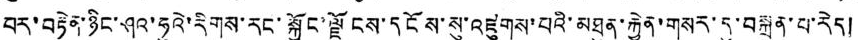བར་བརྟེན་ཉིང་ཤའ་ཧུའེ་རིགས་རང་སྐྱོང་ལྗོངས་དངོས་སུ་འཛུགས་པའི་མཐུན་རྐྱེན་གསར་དུ་བསྐྲུན་པ་རེད།
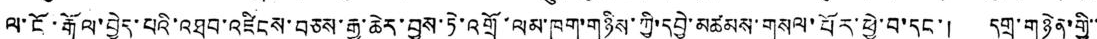ལ་ངོ་རྒོལ་བྱེད་པའི་བཐབ་འཛིངས་བཅས་རྒྱ་ཆེར་བྱས་ཏེ་འགྲོ་ལམ་ཁག་གཉིས་ཀྱི་དབྱེ་མཚམས་གསལ་པོར་ཕྱེ་བ་དང་། དགྲ་གཉེན་གྱི་་
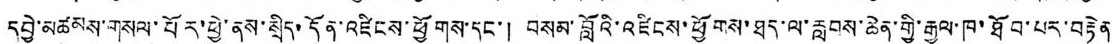དབྱེ་མཚམས་གསལ་པོར་ཕྱེ་ནས་སྲིད་དོན་འཛིངས་ཕྱོགས་དང་། བསམ་བློའི་འཛིངས་ཕྱོགས་ཐད་ལ་རླབས་ཆེན་གྱི་རྒྱལ་ཁ་ཐོབ་པར་བརྟེན
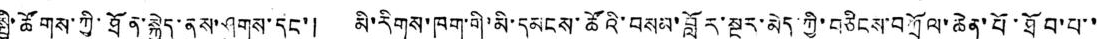སྤྱི་ཚོགས་ཀྱི་ཐོན་སྐྱེད་ནུས་ཤུགས་དང་། མི་རིགས་ཁག་གི་མི་དམངས་ཚོའི་བསམ་བློར་སྔར་མེད་ཀྱི་བཅིངས་བཀྲོལ་ཆེན་པོ་ཐོབ་པ་་
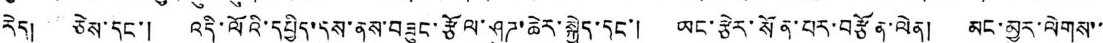རེད། ཅེས་དང་། འདི་ལོའི་དཔྱིད་དུས་ནས་བཟུང་རྩོལ་ཤུཌ་ཆེར་སྐྱེད་དང་། ཡང་རྩེར་སོན་པར་བརྩོན་ལེན། མང་མྱུར་ལེགས་་
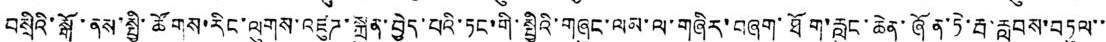བསྲིའི་སྒོ་ནས་སྤྱི་ཚོགས་རིངས་ལུགས་འཛུཌ་སྐྲུན་བྱེད་པའི་ཏང་གི་སྤྱིའི་གཞུང་ལམ་ལ་གཞིར་བཞག་ཐོག་རླུང་ཆེན་ཞོན་ཏེ་རྦ་རླབས་བཏུལ་་
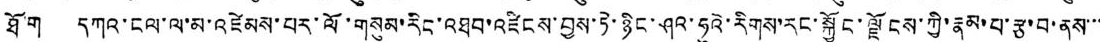ཐོག དཀའ་ངལ་ལ་མ་འཛེམས་པར་ལོ་གསུམ་རིང་འཐབ་འཛིངས་བྱས་ཏེ་ཉིང་ཤའ་ཧུའེ་རིགས་རང་སྐྱོང་ལྗོངས་ཀྱི་རྣམ་པ་རྩ་བ་ནས་་་
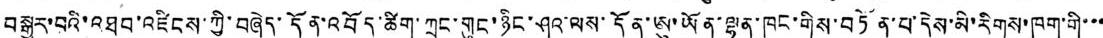བསྒྱུར་པའི་འཐབ་འཛིངས་ཀྱི་བཞེད་དོན་འབོད་ཚིག་ཀྲུང་གུང་ཉིང་ཤའ་ལས་དོན་ཨུ་ཡོན་ལྷན་ཁང་གིས་བཏོན་པ་དེས་མི་རིགས་ཁག་གི་་་
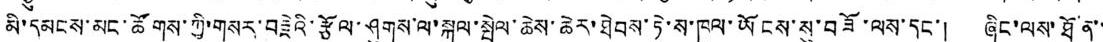མི་དམངས་མང་ཚོགས་ཀྱི་གསར་བརྗེའི་རྩོལ་ཤུགས་ལ་སྐུལ་སྤེལ་ཆེས་ཆེར་ཐེབས་ཏེ་ས་ཁུལ་ཡོངས་སུ་བཟོ་ལས་དང་། ཞིང་ལས་ཐོན་་
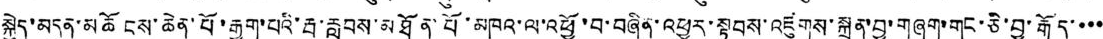སྐྱེད་མདུན་མཆོངས་ཆེན་པོ་རྒྱག་པའི་རྦ་རླབས་མཐོན་པོ་མཁའ་ལ་འཕྱོ་བ་བཞིན་འཕྱུར་སྟབས་འཛུགས་སྐྲུན་བྱ་གཞག་གང་ཅི་བྱ་རྒོད་་་་
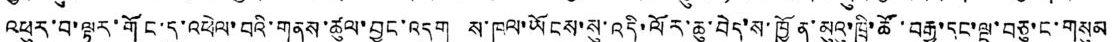འཕུར་བ་ལྟར་གོང་དུ་འཕེལ་བའི་གནས་ཚུལ་བྱུང་འདུག ས་ཁུལ་ཡོངས་སུ་འདི་ལོར་ཆུ་བེད་ས་ཁྱོན་མུའུ་ཁྲི་ཚོ་བརྒྱ་དང་ལྔ་བཅུ་ང་གསུམ
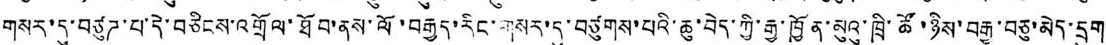གསར་དུ་བཙུཌ་པ་དེ་བཅིངས་འགྲོལ་ཐོབ་ནས་ལོ་བརྒྱད་རིང་གསར་དུ་བཙུགས་པའི་ཆུ་བེད་ཀྱི་རྒྱ་ཁྱོན་མུའུ་ཁྲི་ཚོ་ཉིས་བརྒྱ་བཅུ་མེད་དྲུག
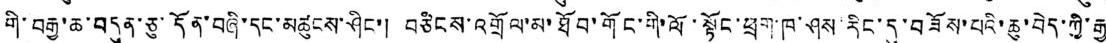གི་བརྒྱ་ཆ་བདུན་ཅུ་དོན་བཞི་དང་མཚུངས་ཤིང་། བཅིངས་འགྲོལ་མ་ཐོབ་གོང་གི་ལོ་སྟོང་ཕྲག་ཁག་ཤས་རིང་དུ་བཟོས་པའི་ཆུ་བེད་ཀྱི་རྒྱ
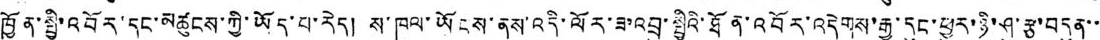ཁྱོན་སྤྱི་འབོར་དང་མཚུངས་ཀྱི་ཡོད་པ་རེད། ས་ཁུལ་ཡོངས་ནས་འདི་ལོར་ཟ་འབྲུ་སྤྱིའི་ཐོན་འབོར་འདེགས་རྒྱ་དུང་ཕྱུར་ཉི་ཤུ་རྩ་བདུན་་
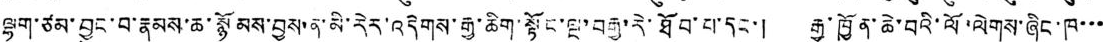ལྷག་ཙམ་བྱུང་བ་རྣམས་ཆ་སྙོམས་བྱས་ན་མི་རེར་འདེགས་རྒྱ་ཆིག་སྟོང་ལྔ་བརྒྱ་རེ་ཐོབ་པ་དང་། རྒྱ་ཁྱོན་ཆེ་བའི་ལོ་ལེགས་ཞིང་ཁ་་་
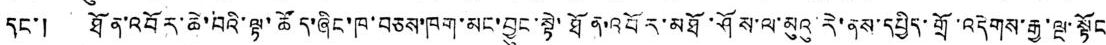དང་། ཐོན་འབོར་ཆེ་བའི་ལྟ་ཚོད་ཞིང་ཁག་བཅས་ཁག་མང་བྱུང་སྟེ་ཐོན་འབོར་མཐོ་ཤོས་ལ་མུའུ་རེ་ནས་དཔྱིད་གྲོ་འདེགས་རྒྱ་ལྔ་སྟོང
